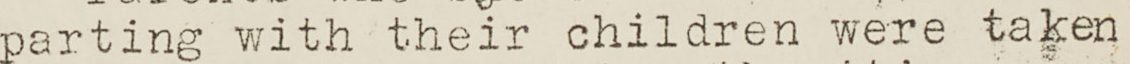parting with their children were taken
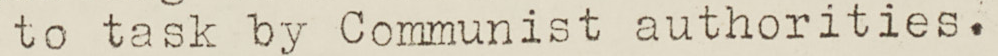to task by Communist authorities.
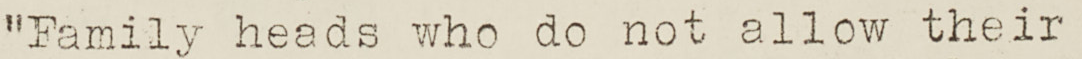"Family heads who do not allow their
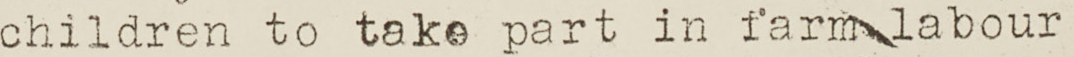children to take part in farm labour
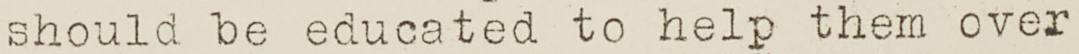should be educated to help them over
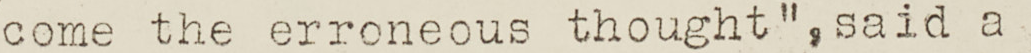come the erroneous thought", said a
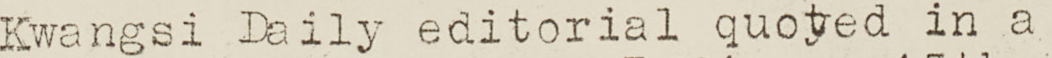Kwangsi Daily editorial quoted in a
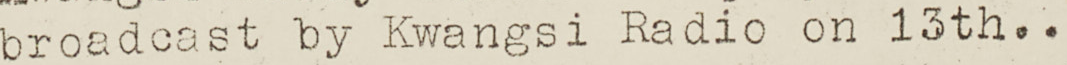broadcast by Kwangs Radio on 13th..
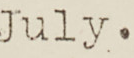July.
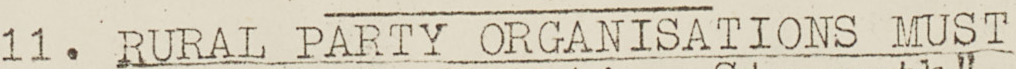11. RURAL PARTY ORGANISATIONS MUST
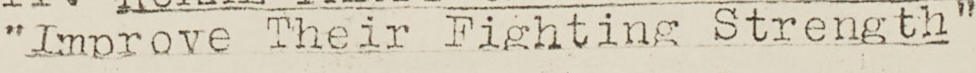"Improve Their Fighting Strength"
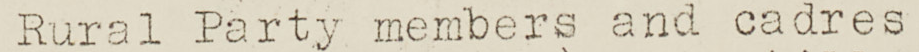Rural Party members and cadres
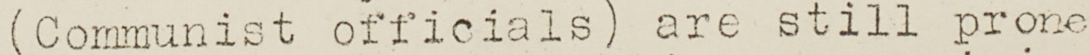(Communist officials) are still prone
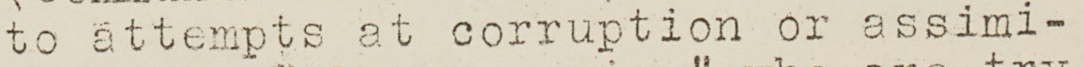to attempts at corruption or assimi-
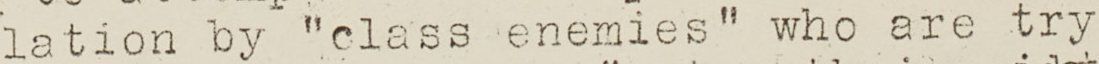lation by class enemies who are try
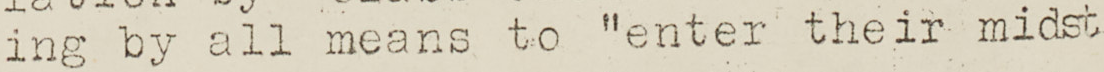ing by all means to enter their midst
